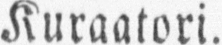Kuraatori.
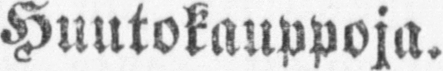Huutokauppoja.
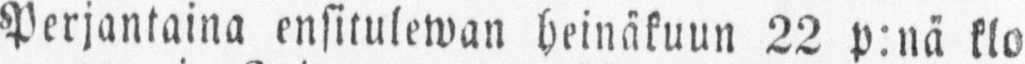Perjantaina ensitulewan heinäkuun 22 p:nä klo
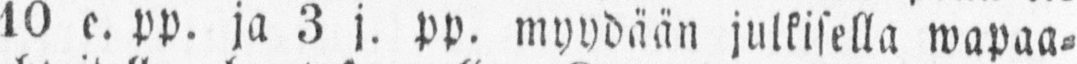10 e. pp. ja 3 j. pp. myydään julkisella wapaa-
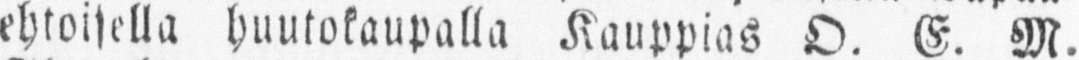ehtoisella huutokaupalla Kauppias O. E. M.
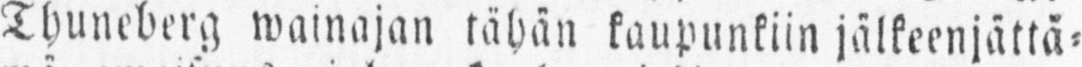Thuneberg wainajan tähän kaupunkiin jälkeenjättä-
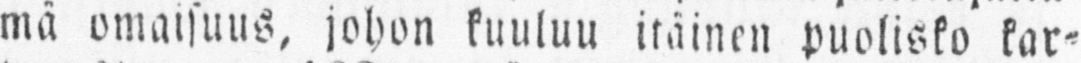mä omaisuus, johon kuuluu itäinen puolisko kar-
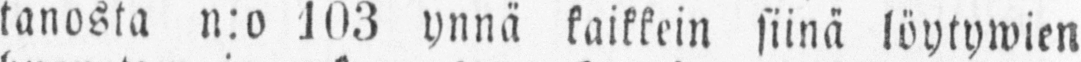tanosta n:o 103 ynnä kaikkein siinä löytywien
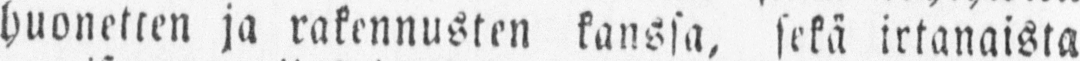huonetten ja rakennusten kanssa, sekä irtanaista
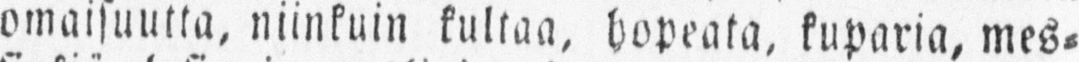omaisuutta, niinkuin kultaa, hopeata, kuparia, mes-
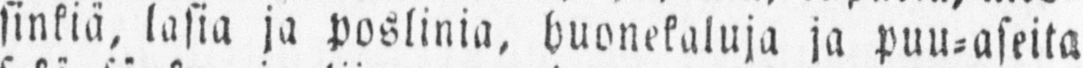sinkiä, lasia ja poslinia, huonekaluja ja puu-aseita
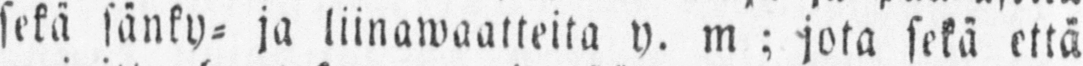sekä sänky- ja liinawaatteita y. m; jota sekä että
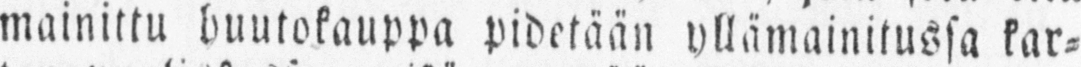mainittu huutokauppa pidetään yllämainitussa kar-
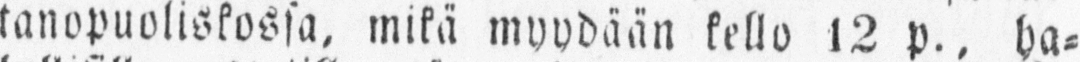tanopuoliskossa, mikä myydään kello l2 p., ha-
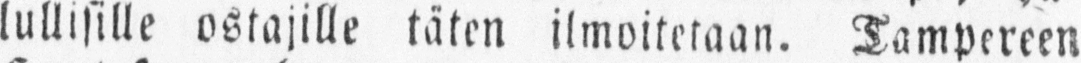lullisille ostajille täten ilmoitetaan. Tampereen
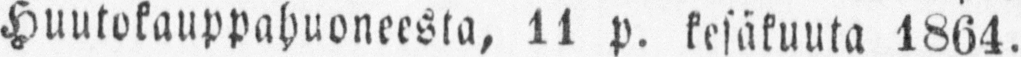Huutokauppahuoneesta, 11 p. kesäkuuta 1864.
